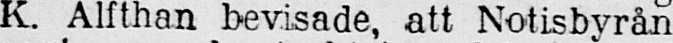K. Alfthan bevisade, att Notisbyrån
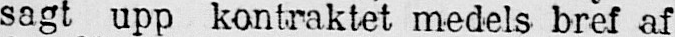sagt upp kontraktet medels bref af
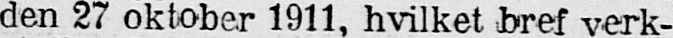den 27 oktober 1911, hvilket bref verk-
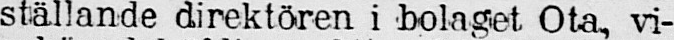ställande direktören i bolaget Ota, vi-
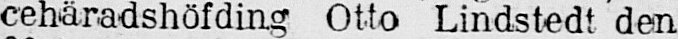cehäradshöfding Otto Lindstedt den
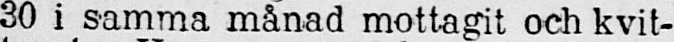30 i samma månad mottagit och kvit-
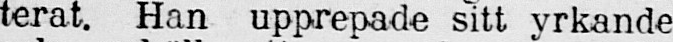terat. Han upprepade sitt yrkande
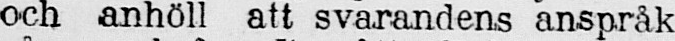och anhöll att svarandens anspråk
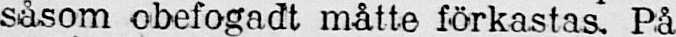såsom obefogadt måtte förkastas. På
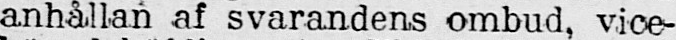anhållan af svarandens ombud, vice-
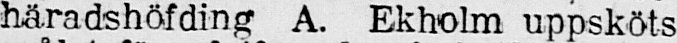häradshöfding A. Ekholm uppsköts
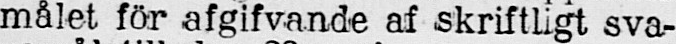målet för afgifvande af skriftligt sva-
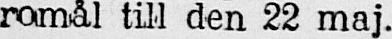romål till den 22 maj.
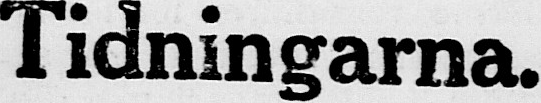Tidningarna.
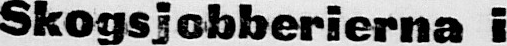Skogsjobberierna i
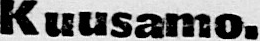Kuusamo.
